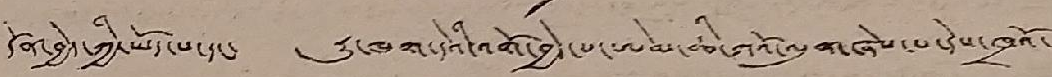དོན་བྱེད་ཀྱི་ཡོད་པ་དང་ རུ་ཁག་དེའི་འགོ་བྱེད་པ་ཨེམ་ཆི་གའོ་ལུན་ཞེས་པ་དེས་ཁའོ་
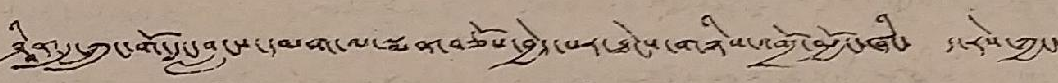ཤིན་དུ་ཀྲུང་གོ་དང་བླངས་དམག་ལ་སྨན་བཅོས་བྱེད་པར་ཐེངས་གཉིས་འགྲོ་མྱོང་ཞིང་ ད་རེས་ཀྱང་
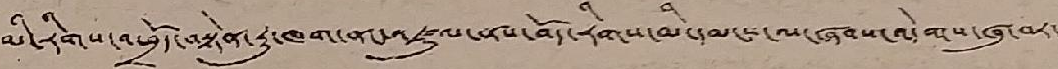མི་རིགས་འཕྲོད་བསྟེན་རུ་ཁག་ནང་འཛུལ་ནས་བོད་རིགས་མི་དམངས་ལ་ཞབས་འདེགས་ཞུ་བར་
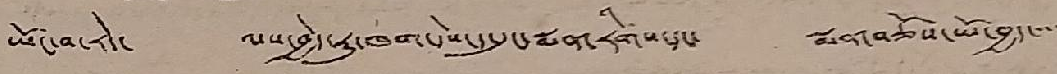ཡོང་བ་རེད་ ལས་བྱེད་རུ་ཁག་དེས་ད་དུང་སྨན་རིགས་དང་ སྨན་བཅོས་ཡོ་བྱད་་་་
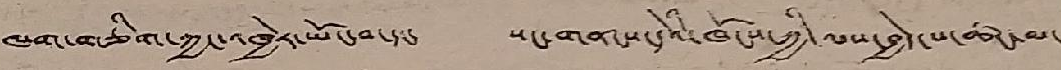ཁག་གཅིག་ཀྱང་འཁྱེར་ཡོང་བ་དང་ སང་གནངས་དེའི་ཁོངས་ཀྱི་ལས་བྱེད་པ་ཚང་མ་
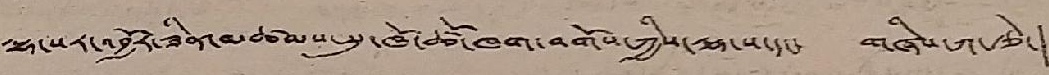ལྷ་སར་འབྱོར་ཟིན་མཚམས་སུ་ཁོ་ཚོ་ཁག་བགོས་ཀྱིས་ལྷ་ས་དང་ གཞིས་ཀ་རྩེ་།
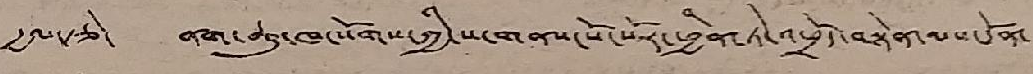རྒྱལ་རྩེ་ ནག་ཆུ་ཁ་སོགས་ཀྱི་ས་གནས་སོ་སོར་ཕྱིན་ཏེ་འཕྲོད་བསྟེན་ལས་དོན་
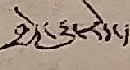བྱེད་རྒྱུ་རེད་།
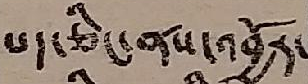པད་ཅིང་ནས་འབྱོར་
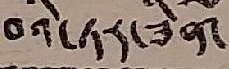བའི་ཏར་ཟིན་
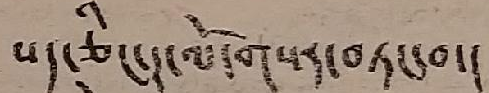པད་ཅིང་དུ་ལོ་གསར་བཏང་བ་།
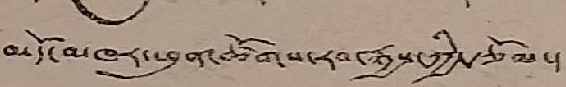མདོ་མཁར་ཕུན་ཚོགས་རབ་རྒྱས་ཀྱི་རྩོམ་།
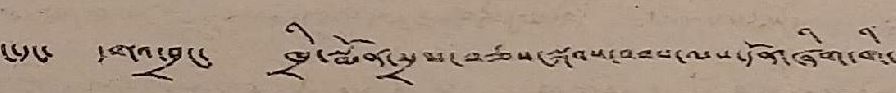ང་དང་ དགའ་བྲང་ ཁྲི་སྨོན་སྲམ་བཅས་སྐབས་བབས་ལས་དོན་ཞིག་གི་
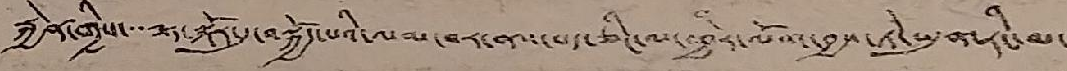རྐྱེན་གྱིས་་་ལྟ་སྐོར་དུ་བསྐྱོད་པའི་ལམ་བར་ནས་པད་ཅིང་ལ་ཕྱིར་ལོག་བྱས་ཏེ་ཡུན་རིང་མ་
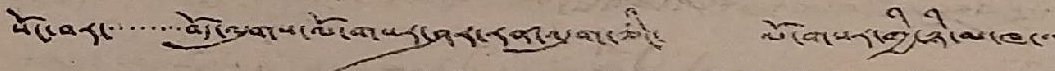སོང་བར་་་་་་་་་བོད་ལུགས་ལོ་གསར་ཤར་རན་འདུག་ཅིང་ ལོ་གསར་གྱི་ཉི་མ་ཁ་་་
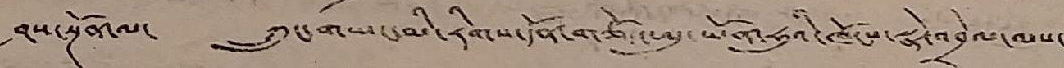ཤས་སྔོན་ལ་ ཀྲུང་གཡང་མི་རིགས་དོན་གཙོ་ཨུ་ཡོན་ཧུའི་ཁོངས་སྣེ་འབྲེལ་ལས་
